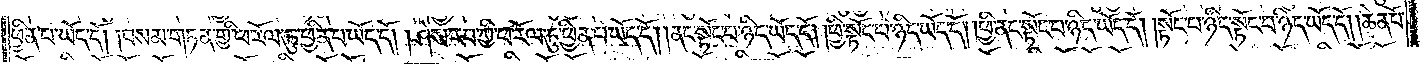ཕྱིན་པ་ཡོད་དོ། །བསམ་གཏན་གྱི་ཕ་རོལ་ཏུ་ཕྱིན་པ་ཡོད་དོ། །ཤེས་རབ་ཀྱི་ཕ་རོལ་ཏུ་ཕྱིན་པ་ཡོད་དོ། །ནང་སྟོང་པ་ཉིད་ཡོད་དོ། །ཕྱི་སྟོང་པ་ཉིད་ཡོད་དོ། །ཕྱི་ནང་སྟོང་པ་ཉིད་ཡོད་དོ། །སྟོང་པ་ཉིད་སྟོང་པ་ཉིད་ཡོད་དོ། །ཆེན་པོ་
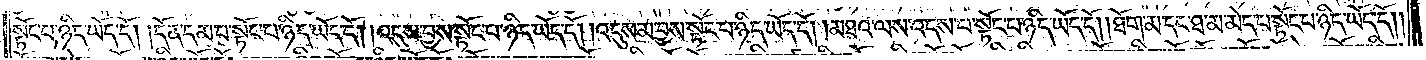སྟོང་པ་ཉིད་ཡོད་དོ། །དོན་དམ་པ་སྟོང་པ་ཉིད་ཡོད་དོ། །འདུས་བྱས་སྟོང་པ་ཉིད་ཡོད་དོ། །འདུས་མ་བྱས་སྟོང་པ་ཉིད་ཡོད་དོ། །མཐའ་ལས་འདས་པ་སྟོང་པ་ཉིད་ཡོད་དོ། །ཐོག་མ་དང་ཐ་མ་མེད་པ་སྟོང་པ་ཉིད་ཡོད་དོ། །
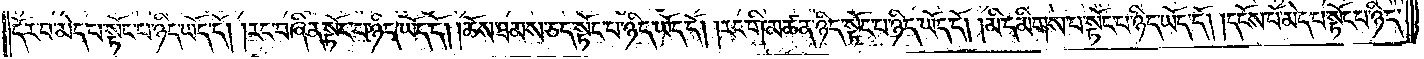དོར་བ་མེད་པ་སྟོང་པ་ཉིད་ཡོད་དོ། །རང་བཞིན་སྟོང་པ་ཉིད་ཡོད་དོ། །ཆོས་ཐམས་ཅད་སྟོང་པ་ཉིད་ཡོད་དོ། །རང་གི་མཚན་ཉིད་སྟོང་པ་ཉིད་ཡོད་དོ། །མི་དམིགས་པ་སྟོང་པ་ཉིད་ཡོད་དོ། །དངོས་པོ་མེད་པ་སྟོང་པ་ཉིད་
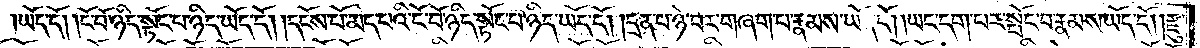ཡོད་དོ། །ངོ་བོ་ཉིད་སྟོང་པ་ཉིད་ཡོད་དོ། །དངོས་པོ་མེད་པའི་ངོ་བོ་ཉིད་སྟོང་པ་ཉིད་ཡོད་དོ། །དྲན་པ་ཉེ་བར་གཞག་པ་རྣམས་ཡོད་དོ། །ཡང་དག་པར་སྤོང་བ་རྣམས་ཡོད་དོ། །རྫུ་
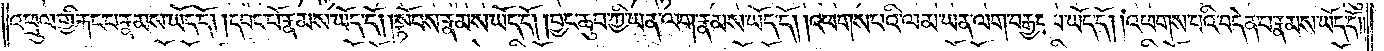འཕྲུལ་གྱི་རྐང་པ་རྣམས་ཡོད་དོ། །དབང་པོ་རྣམས་ཡོད་དོ། །སྟོབས་རྣམས་ཡོད་དོ། །བྱང་ཆུབ་ཀྱི་ཡན་ལག་རྣམས་ཡོད་དོ། །འཕགས་པའི་ལམ་ཡན་ལག་བརྒྱད་པ་ཡོད་དོ། །འཕགས་པའི་བདེན་པ་རྣམས་ཡོད་དོ། །
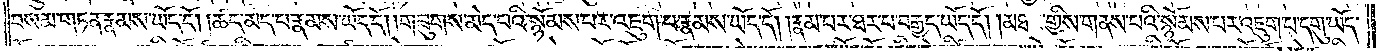བསམ་གཏན་རྣམས་ཡོད་དོ། །ཚད་མེད་པ་རྣམས་ཡོད་དོ། །གཟུགས་མེད་པའི་སྙོམས་པར་འཇུག་པ་རྣམས་ཡོད་དོ། །རྣམ་པར་ཐར་པ་བརྒྱད་ཡོད་དོ། །མཐར་གྱིས་གནས་པའི་སྙོམས་པར་འཇུག་པ་དགུ་ཡོད་
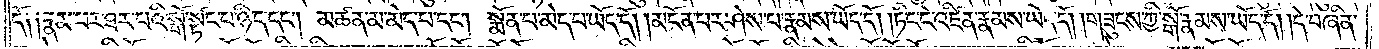དོ༑ ༑རྣམ་པར་ཐར་པའི་སྒོ་སྟོང་པ་ཉིད་དང༌། མཚན་མ་མེད་པ་དང༌། སྨོན་པ་མེད་པ་ཡོད་དོ། །མངོན་པར་ཤེས་པ་རྣམས་ཡོད་དོ། །ཏིང་ངེ་འཛིན་རྣམས་ཡོད་དོ། །གཟུངས་ཀྱི་སྒོ་རྣམས་ཡོད་དོ། །དེ་བཞིན་
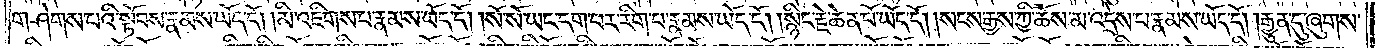གཤེགས་པའི་སྟོབས་རྣམས་ཡོད་དོ། །མི་འཇིགས་པ་རྣམས་ཡོད་དོ། །སོ་སོ་ཡང་དག་པར་རིག་པ་རྣམས་ཡོད་དོ། །སྙིང་རྗེ་ཆེན་པོ་ཡོད་དོ། །སངས་རྒྱས་ཀྱི་ཆོས་མ་འདྲེས་པ་རྣམས་ཡོད་དོ། །རྒྱུན་དུ་ཞུགས་
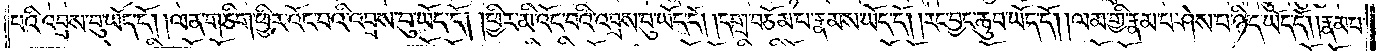པའི་འབྲས་བུ་ཡོད་དོ། །ལན་གཅིག་ཕྱིར་འོང་བའི་འབྲས་བུ་ཡོད་དོ། །ཕྱིར་མི་འོང་བའི་འབྲས་བུ་ཡོད་དོ། །དགྲ་བཅོམ་པ་ཉིད་ཡོད་དོ། །རང་བྱང་ཆུབ་ཡོད་དོ། །ལམ་གྱི་རྣམ་པ་ཤེས་པ་ཉིད་ཡོད་དོ། །རྣམ་པ་
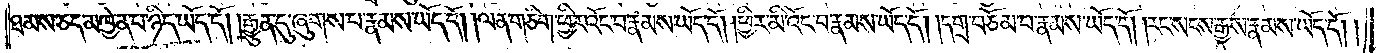ཐམས་ཅད་མཁྱེན་པ་ཉིད་ཡོད་དོ། །རྒྱུན་དུ་ཞུགས་པ་རྣམས་ཡོད་དོ། །ལན་གཅིག་ཕྱིར་འོང་བ་རྣམས་ཡོད་དོ། །ཕྱིར་མི་འོང་བ་རྣམས་ཡོད་དོ། །དགྲ་བཅོམ་པ་རྣམས་ཡོད་དོ། །རང་སངས་རྒྱས་རྣམས་ཡོད་དོ། །
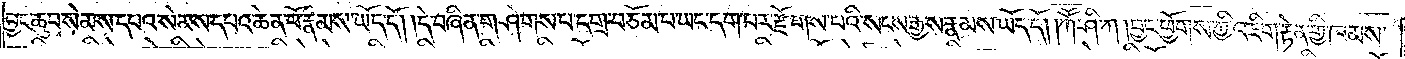བྱང་ཆུབ་སེམས་དཔའ་སེམས་དཔའ་ཆེན་པོ་རྣམས་ཡོད་དོ། །དེ་བཞིན་གཤེགས་པ་དགྲ་བཅོམ་པ་ཡང་དག་པར་རྫོགས་པའི་སངས་རྒྱས་རྣམས་ཡོད་དོ། །ཀཽ་ཤི་ཀ །བྱང་ཕྱོགས་ཀྱི་འཇིག་རྟེན་གྱི་ཁམས་
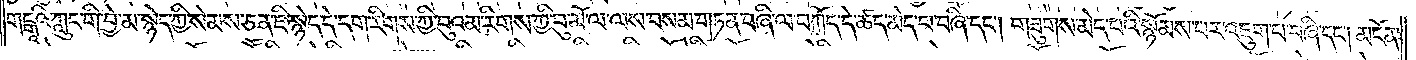གངྒཱའི་ཀླུང་གི་བྱེ་མ་སྙེད་ཀྱི་སེམས་ཅན་ཇི་སྙེད་པ་དེ་དག་རིགས་ཀྱི་བུའམ་རིགས་ཀྱི་བུ་མོ་ལ་ལས་བསམ་གཏན་བཞི་ལ་བཀོད་དེ་ཚད་མེད་པ་བཞི་དང༌། གཟུགས་མེད་པའི་སྙོམས་པར་འཇུག་པ་བཞི་དང༌། མངོན་
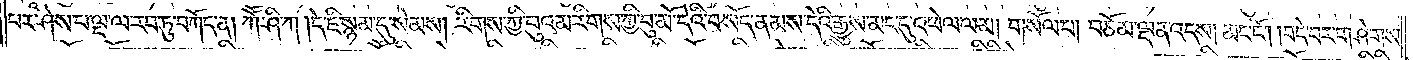པར་ཤེས་པ་ལྔ་ལ་རབ་ཏུ་བཀོད་ན། ཀཽ་ཤི་ཀ །དེ་ཇི་སྙམ་དུ་སེམས། རིགས་ཀྱི་བུའམ་རིགས་ཀྱི་བུ་མོ་དེའི་བསོད་ནམས་དེའི་རྒྱུས་མང་དུ་འཕེལ་ལམ། གསོལ་པ། བཅོམ་ལྡན་འདས། མང་ངོ༌། །བདེ་བར་གཤེགས་
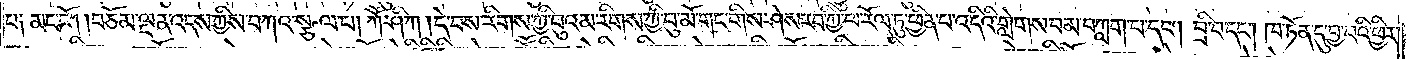པ༑ མང་ངོ༌། །བཅོམ་ལྡན་འདས་ཀྱིས་བཀའ་སྩལ་པ། ཀཽ་ཤི་ཀ །དེ་བས་རིགས་ཀྱི་བུའམ་རིགས་ཀྱི་བུ་མོ་གང་གིས་ཤེས་རབ་ཀྱི་ཕ་རོལ་ཏུ་ཕྱིན་པ་འདིའི་གླེགས་བམ་བཀླག་པ་དང༌། བྲི་བ་དང༌། ཁ་ཏོན་དུ་བྱ་བའི་ཕྱིར་
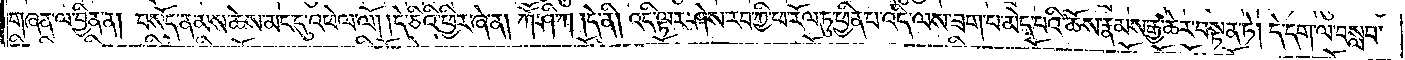གཞན་ལ་བྱིན་ན། བསོད་ནམས་ཆེས་མང་དུ་འཕེལ་ལོ། །དེ་ཅིའི་ཕྱིར་ཞེ་ན། ཀཽ་ཤི་ཀ །དེ་ནི། འདི་ལྟར་ཤེས་རབ་ཀྱི་ཕ་རོལ་ཏུ་ཕྱིན་པ་འདི་ལས་ཟག་པ་མེད་པའི་ཆོས་རྣམས་རྒྱ་ཆེར་བསྟན་ཏེ། དེ་དག་ལ་བསླབ་
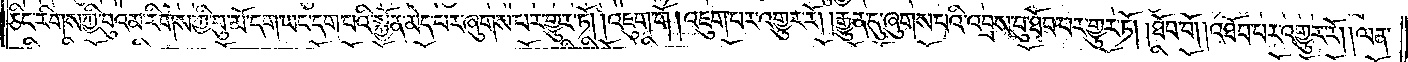ཅིང་རིགས་ཀྱི་བུའམ་རིགས་ཀྱི་བུ་མོ་དག་ཡང་དག་པའི་སྐྱོན་མེད་པར་ཞུགས་པར་གྱུར་ཏོ། །འཇུག་གོ །འཇུག་པར་འགྱུར་རོ། །རྒྱུན་དུ་ཞུགས་པའི་འབྲས་བུ་ཐོབ་པར་གྱུར་ཏོ། །ཐོབ་བོ། འཐོབ་པར་འགྱུར་རོ། །ལན་
